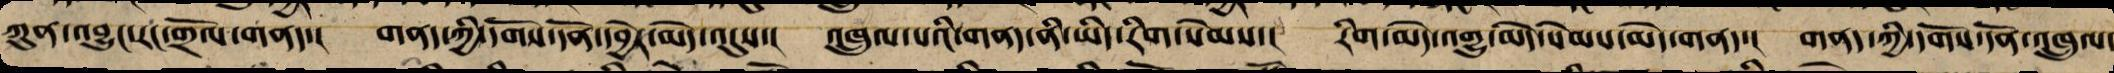ཀུན་འབྱུང་རང་གྲོལ་གནད་། གནད་ཀྱི་དགོས་དོན་དབྱེར་མེད་འདུས་། འཁྲུལ་པའི་གནད་ནི་ཡིད་རིག་སེམས་། རིག་མེད་འགྱུ་མེད་སེམས་མེད་གནད་། གནད་ཀྱི་དགོས་དོན་འཁྲུལ་
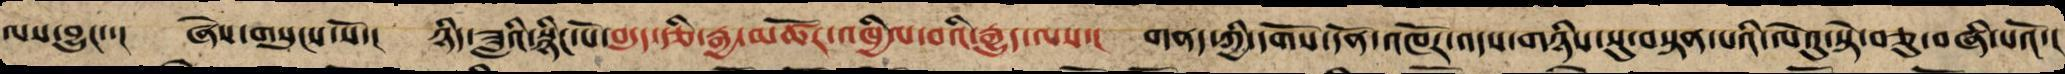ལས་བྱུང་་། ཞེས་གསུངས་སོ་། ཉི་ཟླའི་སྙིང་པོ་བདུད་རྩི་རྒྱ་མཚོ་འཁྱིལ་པའི་རྒྱུད་ལས་། གནད་ཀྱི་དགོས་དོན་འཁོར་འདས་གཉིས་སུ་བསྟན་པའི་ལེའུ་སྟེ་བཅུ་བཞི་པའོ་།།
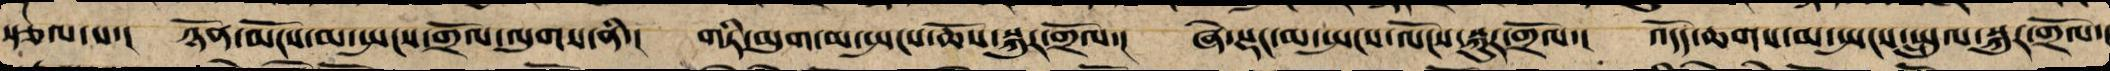སྩལ་པ་། ཉོན་མོངས་མ་སྤངས་གྲོལ་ལུགས་ནི་། གཏི་མུག་མ་སྤངས་ཆོས་སྐུར་གྲོལ་། ཞེ་སྡང་མ་སྤངས་ལོངས་སྐུར་གྲོལ་། འདོད་ཆགས་མ་སྤངས་སྤྲུལ་སྐུར་གྲོལ་།
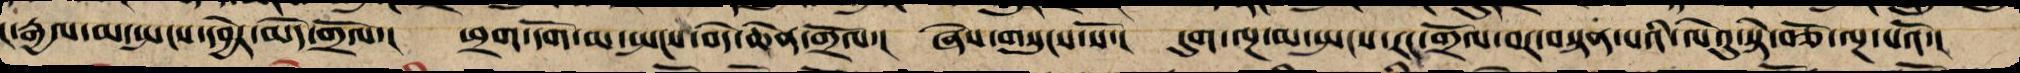ང་རྒྱལ་མ་སྤངས་དབྱེར་མེད་གྲོལ་། ཕྲག་དོག་མ་སྤངས་བདེ་ཆེན་གྲོལ་། ཞེས་གསུངས་སོ་། དུག་ལྔ་མ་སྤངས་རང་གྲོལ་བར་བསྟན་པའི་ལེའུ་སྟེ་བཅོ་ལྔ་པའོ་།།
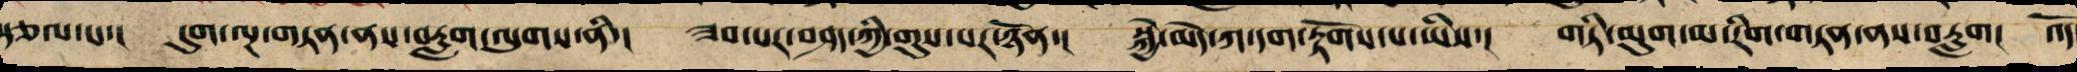སྩལ་པ་། དུག་ལྔ་གཏན་ནས་བརླག་ལུགས་ནི་། ཟབ་པར་བཤད་ཀྱིས་གུས་པར་ཉོན་། སྐྱེ་མེད་ཀ་དག་རྟོགས་པ་ཡིས་། གཏི་མུག་མ་རིག་གཏན་ནས་བརླག། འོད
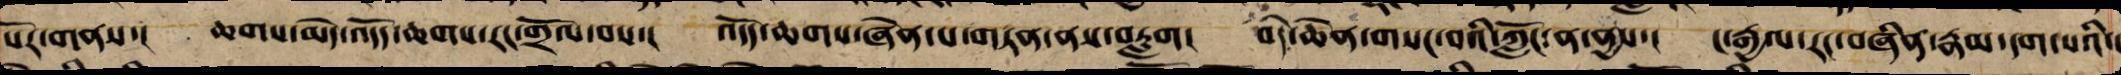པོར་གནས་། ཆགས་མེད་འདོད་ཆགས་རང་གྲོལ་བས་། འདོད་ཆགས་ཞེན་པ་གཏན་ནས་བརླག། བདེ་ཆེན་གསང་བའི་ཀློང་ན་ནྱས་། ང་རྒྱལ་རང་བཞིན་རྣམ་དག་པའི་།
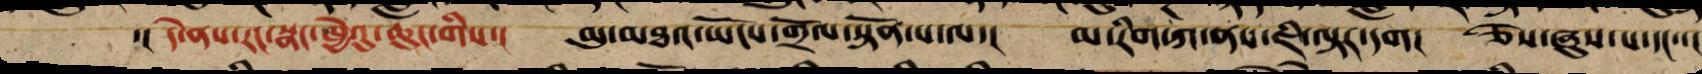་། དེ་ནས་རང་སྣང་ཁྱེའུ་ཆུང་གིས་། མུ་མཐའ་ཡོངས་གྲོལ་སྟོན་པ་ལ་། མ་རིག་ཀ་ནས་ཇི་ལྟར་དག། ཅེས་ཞུས་པ་དང་་།
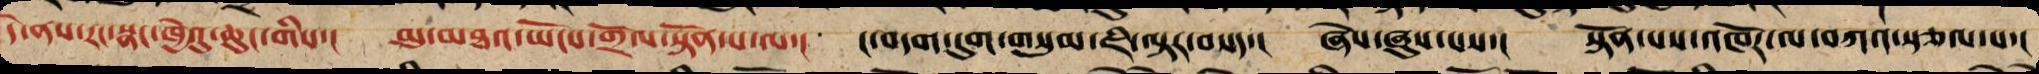དེ་ནས་རང་སྣང་ཁྱེའུ་ཆུང་གིས་། མུ་མཐའ་ཡོངས་གྲོལ་སྟོན་པ་ལ་། ང་བདག་དུག་གསུམ་ཇི་ལྟར་བསད་། ཞེས་ཞུས་པས་། སྟོན་པས་འཁོར་ལ་བཀའ་སྩལ་པ་།
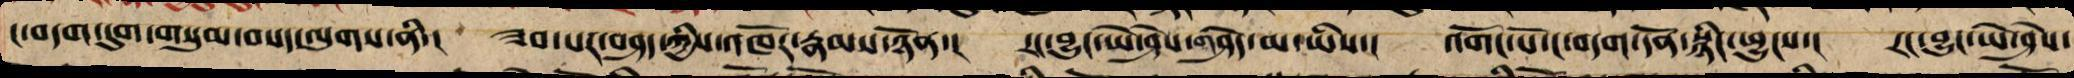ང་བདག་དུག་གསུམ་བསད་ལུགས་ནི་། ཟབ་པར་བཤད་ཀྱིས་འཁོར་རྣམས་ཉོན་། རང་བྱུང་ཡེ་ཤེས་གཤེད་མ་ཡིས་། འགོང་པོ་ང་བདག་དོན་སྙིང་ཕྱུང་། རང་བྱུང་ཡེ་ཤེས་
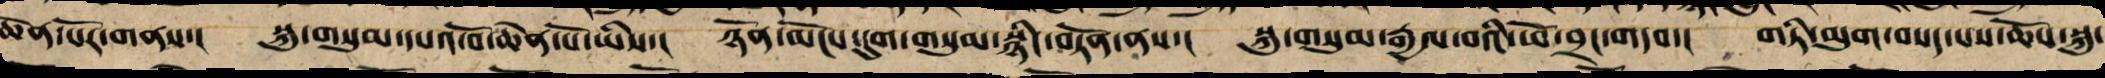ཆེན་པོར་གནས་། སྐུ་གསུམ་དཔའ་བོ་ཆེན་པོ་ཡིས་། ཉོན་མོངས་དུག་གསུམ་སྙིང་བཏོན་ནས་། སྐུ་གསུམ་རྒྱལ་བའི་ཕོ་བྲང་གདབ་། གཏི་མུག་བསད་པས་ཆོས་སྐུ་
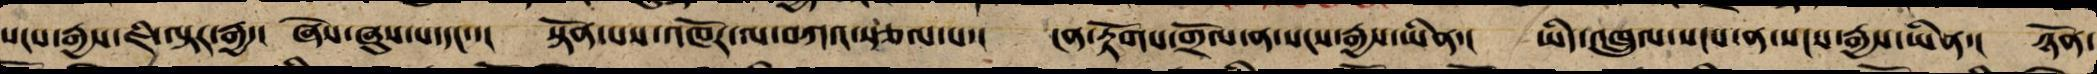སངས་རྒྱས་ཇི་ལྟར་རྒྱ་། ཞེས་ཞུས་པ་དང་་། སྟོན་པས་འཁོར་ལ་བཀའ་སྩལ་པ་། ངན་རྟོག་གྲོལ་ན་སངས་རྒྱས་ཡིན་། ཡིད་འཁྲུལ་སངས་ན་སངས་རྒྱས་ཡིན་། ཉོན་
